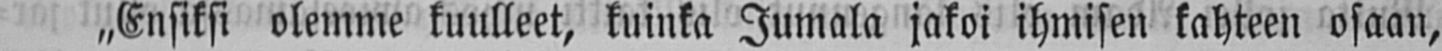„Ensiksi olemme kuulleet, kuinka Jumala jakoi ihmisen kahteen osaan,
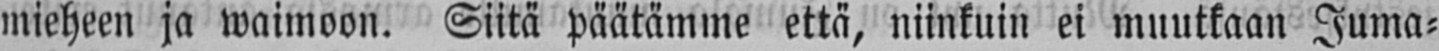mieheen ja waimoon. Siitä päätämme että, niinkuin ei muutkaan Juma-
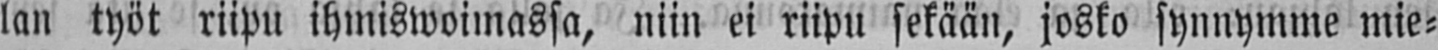lan työt riipu ihmiswoimassa, niin ei riipu sekään, josko synnymme mie-
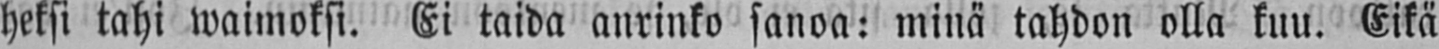heksi tahi waimoksi. Ei taida aurinko sanoa: minä tahdon olla kuu. Eikä
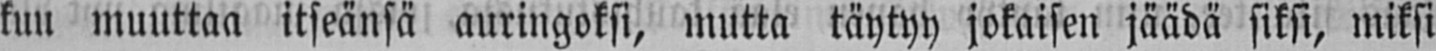kuu muuttaa itseänsä auringoksi, mutta täytyy jokaisen jäädä siksi, miksi
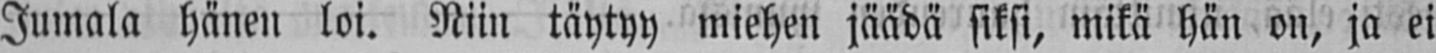Jumala hänen loi. Niin täytyy miehen jäädä siksi, mikä hän on, ja ei
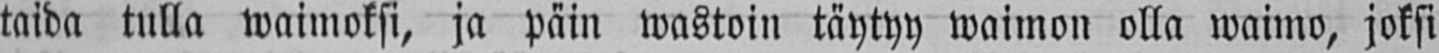taida tulla waimoksi, ja päin wastoin täytyy waimon olla waimo, joksi
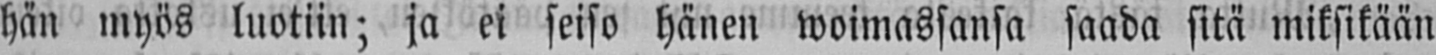hän myös luotiin: ja ei seiso hänen woimassansa saada sitä miksikään
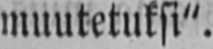muutetuksi".
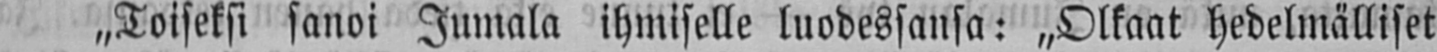„Toiseksi sanoi Jumala ihmiselle tuohessansa: „Olkaat hedelmälliset
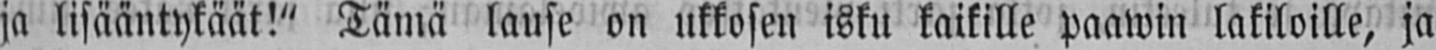ja lisääntykäät!" Tämä lause on ukkosen isku kaikille paawin takiloille, ja
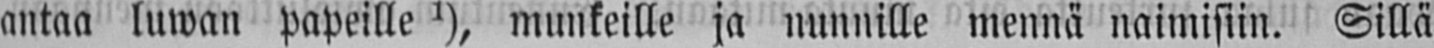antaa luwan papeille ¹), munkeille ja nunnille mennä naimisiin. Sillä
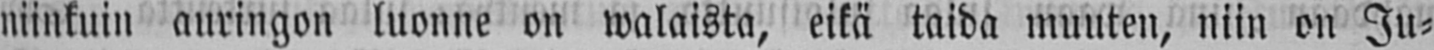niinkuin auringon luonne on walaista, eikä taida muuten, niin on Ju-
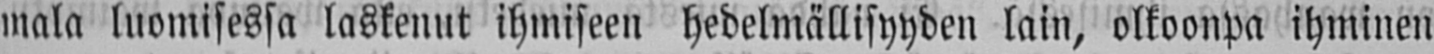mala luomisessa laskenut ihmiseen hedelmällisyyden lain, olkoonpa ihminen
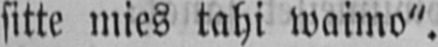sitte mies tahi waimo".
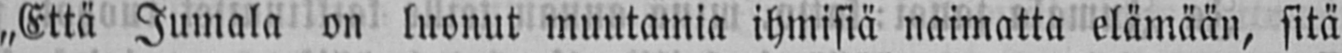„Että Jumala on luonut muutamia ihmisiä naimatta elämään, sitä
